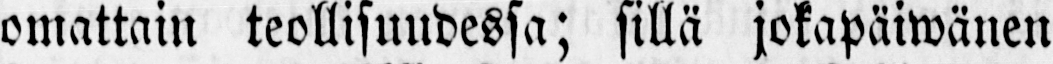omattain teollisuudessa; sillä jokapäiwänen
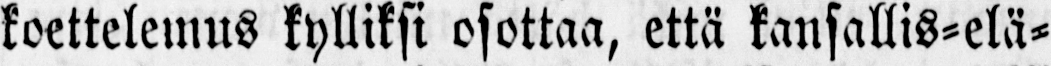koettelemus kylliksi osottaa, että kansallis-elä-
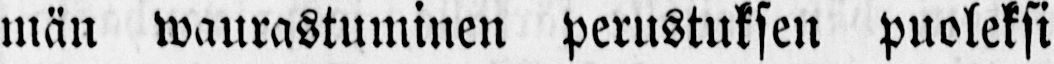män waurastuminen perustuksen puoleksi
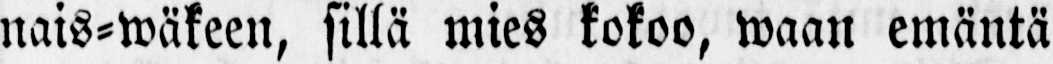nais-wäkeen, sillä mies kokoo, waan emäntä
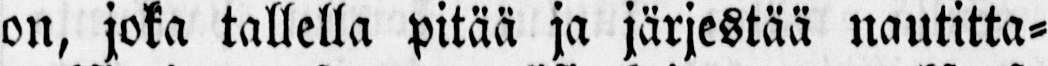on, joka tallella pitää ja järjestää nautitta-
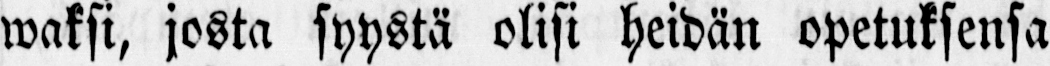waksi, josta syystä olisi heidän opetuksensa
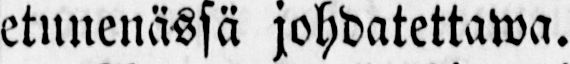etunenässä johdatettawa.
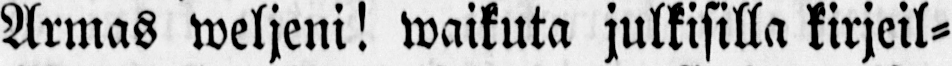Armas weljeni! waikuta julkisilla kirjeil-
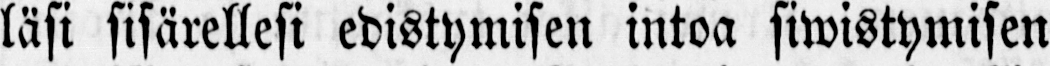läsi sisärellesi edistymisen intoa siwistymisen
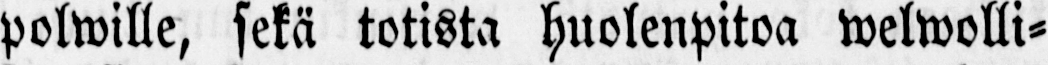polwille, sekä totista huolenpitoa welwolli-
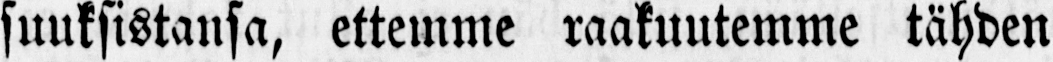suuksistansa, ettemme raakuutemme tähden
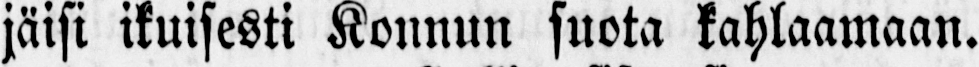jäisi ikuisesti Konnun suota kahlaamaan.
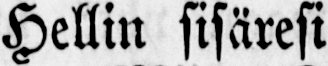Hellin sisäresi
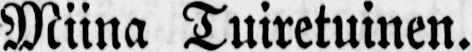Miina Tuiretuinen.
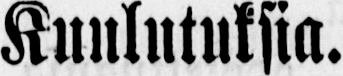Kuulutuksia.
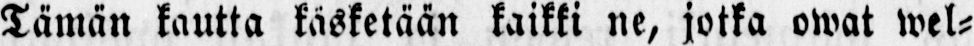Tämän kautta käsketään kaikki ne, jotka owat wel-
